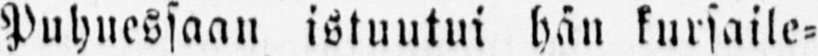Puhuessaan istuutui hän kursaile-
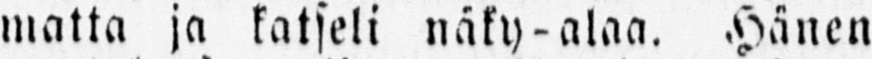matta ja katseli näky-alaa. Hänen
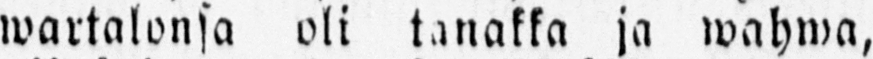wartalonsa oli tanakka ja wahwa,
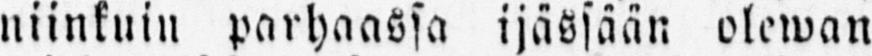niinkuin parhaassa ijässään olewan
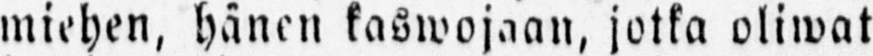miehen, hänen kaswojaan, jotka oliwat
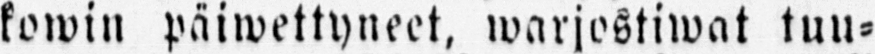kowin päiwettyneet. warjostiwat tuu-
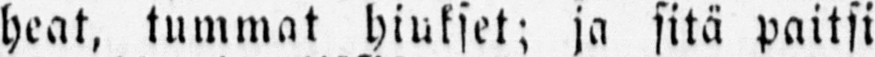heat, tummat hiukset; ja sitä paitsi
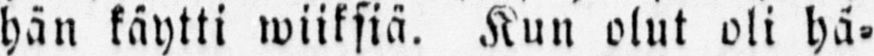hän käytti wiiksiä. Kun olut oli hä-
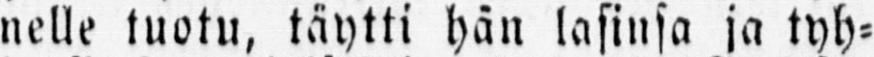nelle tuotu, täytti hän lasinsa ja tyh-
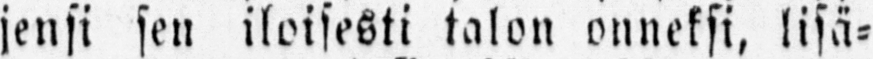jensi sen iloisesti talon onneksi, lisä-
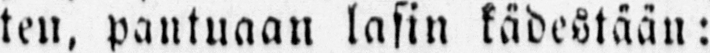ten. pantuaan lasin kädestään:
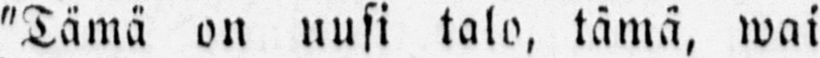"Tämä on uusi talo, tämä, wai
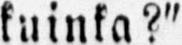kuinka?"
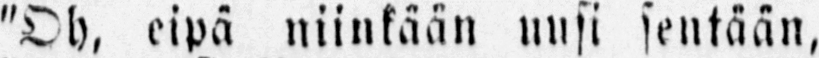"Oh, eipä niinkään uusi sentään,
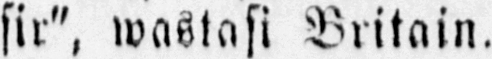sir", wastasi Britain.
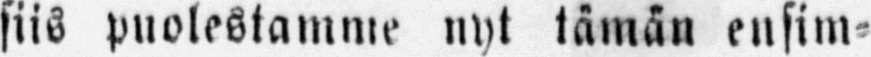siis puolestamme nyt tämän ensim-
